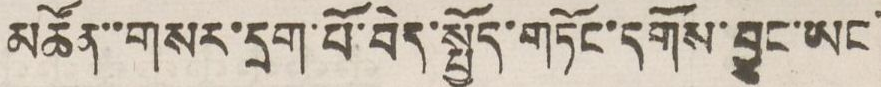མཚོན་་གསར་དྲག་པོ་བེད་སྤྱོད་གཏོང་དགོས་བྱུང་ཡང་
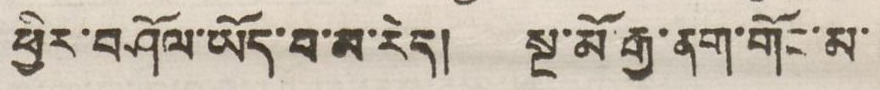ཕྱིར་བཤོལ་ཡོད་པ་མ་རེད། སྔ་མོ་རྒྱ་ནག་གོང་མ་
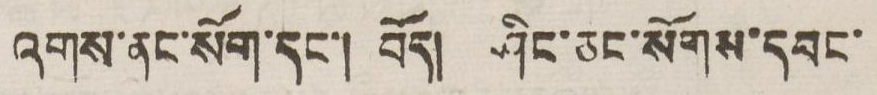འགས་ནང་སོག་དང་། བོད། ཤིང་ཅང་སོགས་དབང་
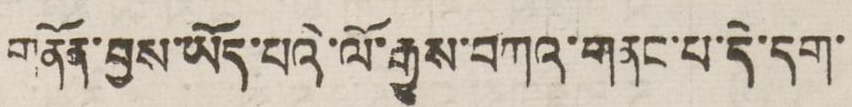གནོན་བྱས་ཡོད་པའི་ལོ་རྒྱུས་བཀའ་གནང་པ་དེ་དག་
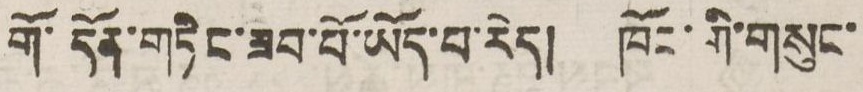གོ་དོན་གཏིང་ཟབ་པོ་ཡོད་པ་རེད། ཁོང་གི་གསུང་
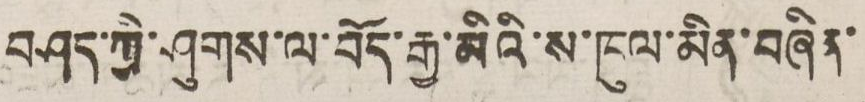བཤད་ཀྱི་ཤུགས་ལ་བོད་རྒྱ་མིའི་ས་ཁུལ་མིན་བཞིན་
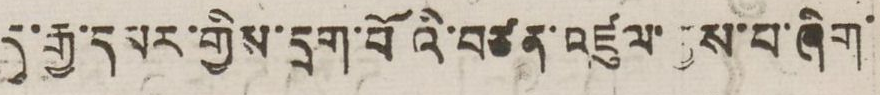དུ་རྒྱ་དམར་གྱིས་དྲག་པོའི་བཙན་འཛུལ་བྱས་པ་ཞིག་
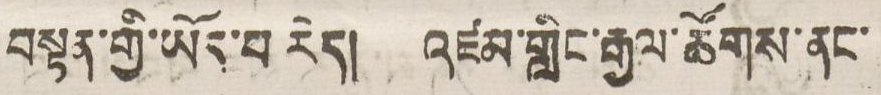བསྟན་གྱི་ཡོད་པ་རེད། འཛམ་གླིང་རྒྱལ་ཚོགས་ནང་
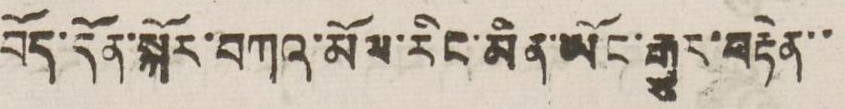བོད་དོན་སྐོར་བཀའ་མོལ་རིང་མིན་ཡོང་རྒྱུར་བརྟེན་་
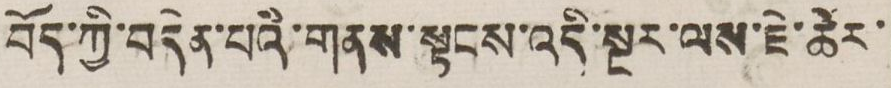བོད་ཀྱི་བདེན་པའི་གནས་སྟངས་འདི་སྔར་ལས་ཇེ་ཆེར་
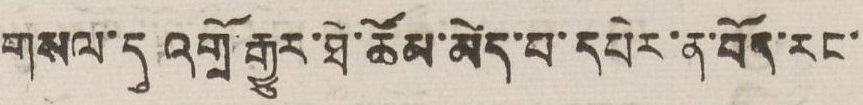གསལ་དུ འགྲོ་རྒྱུར་ཐེ་ཚོམ་མེད་པ་དཔེར་ན་བོད་རང་
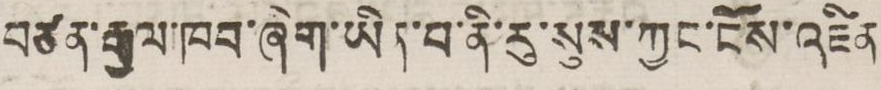བཙན་རྒྱལ་ཁབ་ཞིག་ཡིན་བ་ནི་རུ་སུས་ཀྱང་ངོས་འཛིན
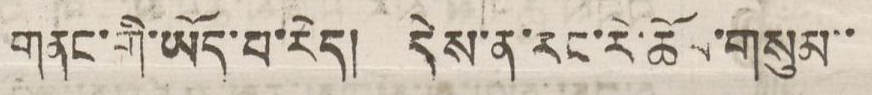གནང་གི་ཡོད་པ་རེད། དེས་ན་རང་རེ་ཆོལ་གསུམ་
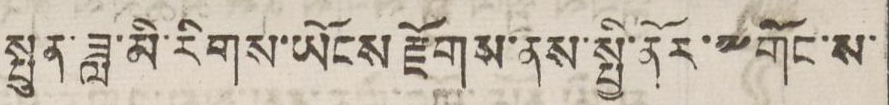སྤུན་ཟླ་མི་རིགས་ཡོངས་རྫོགས་ནས་སྤྱི་ནོར་༸གོང་ས་
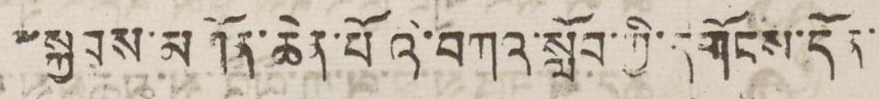༸སྐྱབས་མགོན་ཆེན་པོའི་བཀའ་སློབ་ཀྱི་དགོངས་དོན་
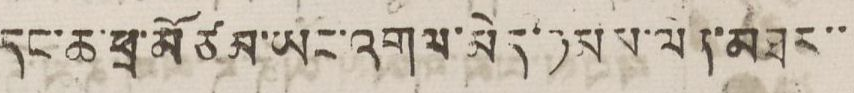དང་ཆ་ཕྲ་མོ ཙམ་ཡང་འགལ་མེད་ཉམས་ལེན་མཐར་་
